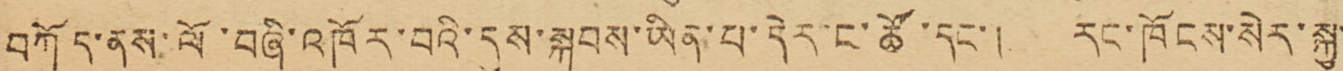བཀོད་ནས་ལོ་བཞི་འཁོར་བའི་དུས་སྐབས་ཡིན་པ་དེར་ང་ཚོ་དང་། རང་ཁོངས་སེར་སྐྱ་་་
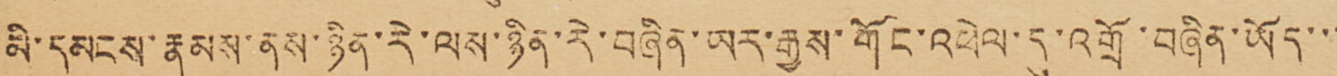མི་དམངས་རྣམས་ནས་ཉིན་རེ་ལས་ཉིན་རེ་བཞིན་ཡར་རྒྱས་གོང་འཕེལ་དུ་འགྲོ་བཞིན་ཡོད་་་་་
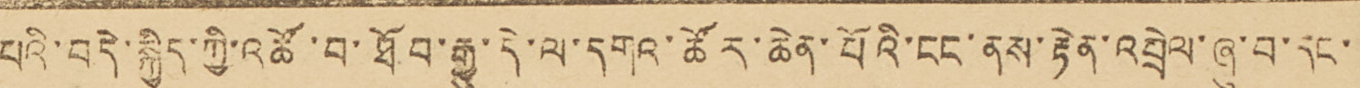པའི་བདེ་སྐྱིད་ཀྱི་འཚོ་བ་ཐོབ་རྒྱུ་དེ་ལ་དགའ་ཚོར་ཆེན་པོའི་ངང་ནས་རྟེན་འབྲེལ་ཞུ་བ་དང་་
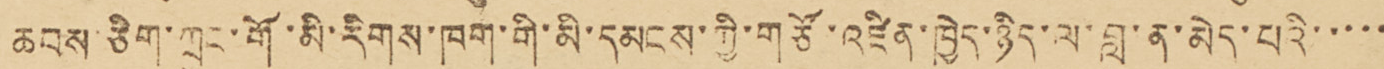ཆབས་ཅིག་ཀྲུང་གོ་མི་རིགས་ཁག་གི་མི་དམངས་ཀྱི་གཙོ་འཛིན་ཁྱེད་ཉིས་ལ་བླ་ན་མེད་པའི་་་་་
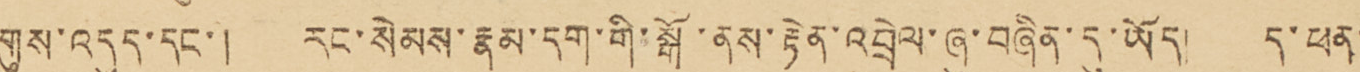གུས་འདུད་དང་། རང་སེམས་རྣམ་དག་གི་སྒོ་ནས་རྟེན་འབྲེལ་ཞུ་བཞིན་དུ་ཡོད། ད་ཕན་
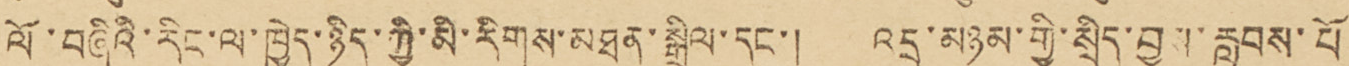ལོ་བཞིའི་རིང་ལ་ཁྱེད་ཉིད་ཀྱི་མི་རིགས་མཐུན་སྒྲིལ་དང་། འདྲ་མཉམ་གྱི་སྲིད་བྱུས་རླབས་པོ་་
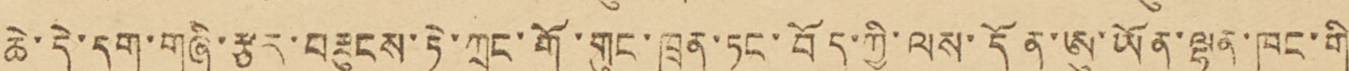ཆེ་དེ་དག་གཞི་རྩར་བཟུངས་ཏེ་ཀྲུང་གོ་གུང་ཁྲན་ཏང་བོད་ཀྱི་ལས་དོན་ཨུ་ཡོན་ལྷན་ཁང་གི་
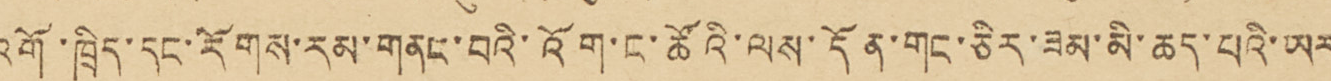འགོ་ཁྲིད་དང་རོགས་རམ་གནང་བའི་འོག་ང་ཚོའི་ལས་དོན་གང་ཅིར་ཟམ་མི་ཆད་པའི་ཡར་
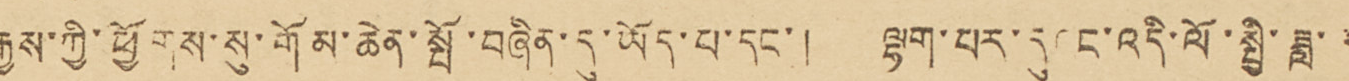རྒྱས་ཀྱི་ཕྱོགས་སུ་གོམ་ཆེན་སྤོ་བཞིན་དུ་ཡོད་པ་དང་། ལྷག་པར་དུའང་འདི་ལོ་སྤྱི་ཟླ་༣
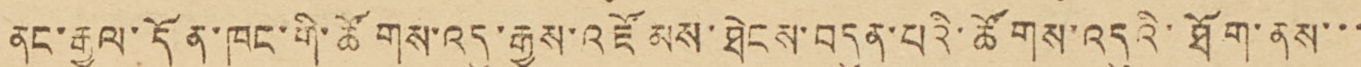ནང་རྒྱལ་དོན་ཁང་གི་ཚོགས་འདུ་རྒྱས་འཛོམས་ཐེངས་བདུན་པའི་ཚོགས་འདུའི་ཐོག་ནས་་་་
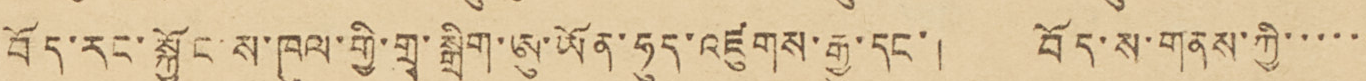བོད་རང་སྐྱོང ས་ཁུལ་གྱི་གྲྭ་སྒྲིག་ཨུ་ཡོན་ཧུད་འཛུགས་རྒྱུ་དང་། བོད་ས་གནས་ཀྱི་་་་་་
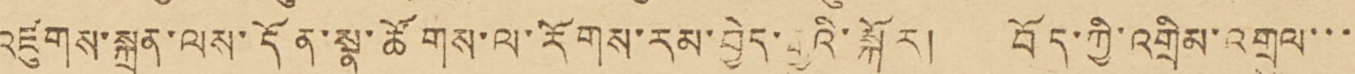འཛུགས་སྐྲུན་ལས་དོན་སྣ་ཚོགས་ལ་རོགས་རམ་བྱེད་རྒྱུའི་སྐོར། བོད་ཀྱི་འགྲིམ་འགྲུལ་་་་
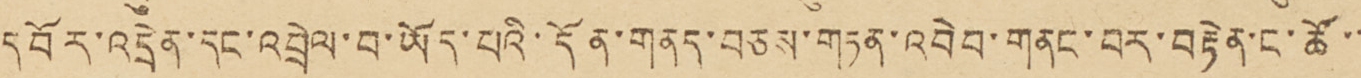དབོར་འདྲེན་དང་འབྲེལ་བ་ཡོད་པའི་དོན་གནད་བཅས་གཏན་འབེབ་གནང་བར་བརྟེན་ང་ཚོ་་་
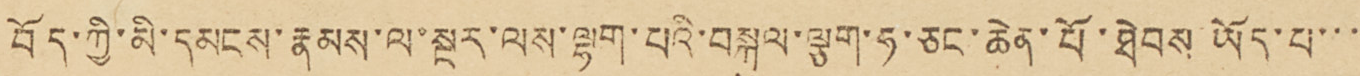བོད་ཀྱི་མི་དམངས་རྣམས་ལ་སྔར་ལས་ལྷག་པའི་བསྐུལ་ལྕག་ཧ་ཅང་ཆེན་པོ་ཐེབས་ཡོད་པ་་་་
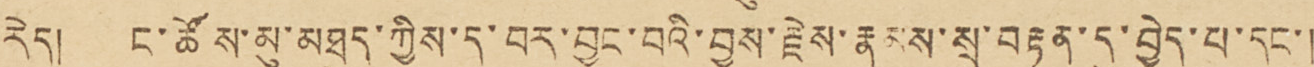རེད། ང་ཚོས་མུ་མཐུད་ཀྱིས་ད་བར་བྱུང་བའི་བྱས་རྗེས་རྣམས་སྲ་བརྟན་དུ་བྱེད་པ་དང་།
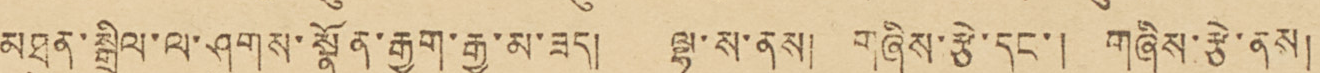མཐུན་སྒྲིལ་ལ་ཤུགས་སྣོན་རྒྱག་རྒྱུ་མ་ཟད། ལྷ་ས་ནས། གཞིས་རྩེ་དང་། གཞིས་རྩེ་ནས།
